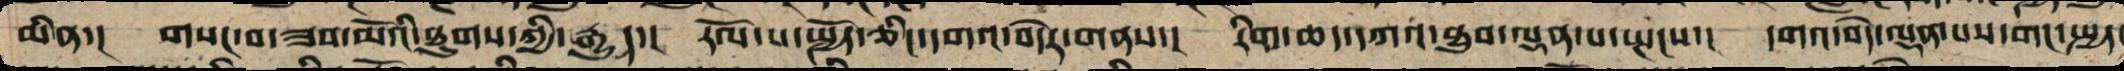མིན་། གསང་བ་ཟབ་མོའི་ཐུགས་ཀྱི་རྒྱུད་། རོལ་པ་སྤྱོད་ཅིང་དགའ་བདེར་གནས་། རིགས་ཆད་དཀའ་ཐུབ་ལྡན་པ་སྤངས་། དགའ་བདེ་ལྡན་པས་གང་སྤྱད་
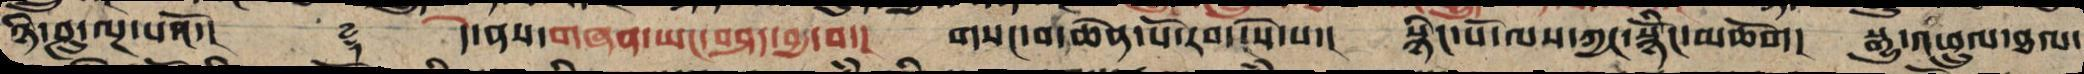ཉི་ཤུ་ལྔ་པའོ་།། ༈ དེ་ནས་གཞན་ཡང་བཤད་བྱ་བ་། གསང་བ་ཆེན་པོ་རབ་ངེས་པ་། སྙིང་པོ་ལས་ཀྱང་སྙིངོ་མཆོག། སྒྱུ་འཕྲུལ་ཐལ་
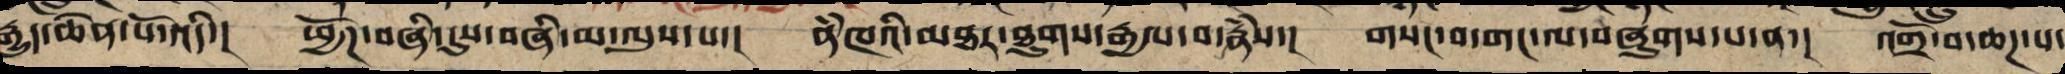རྒྱུད་ཆེན་པོ་འདི་། ཕྱོཌ་བཞི་དུས་བཞི་མ་ལུས་པའི་། ནཾཁའི་མཐར་ཐུག་རྒྱལ་བ་རྣཾས། གསང་བ་གང་ལ་ཞུགས་པ་ན་། འགྲོ་བ་ཆཌ་པ་
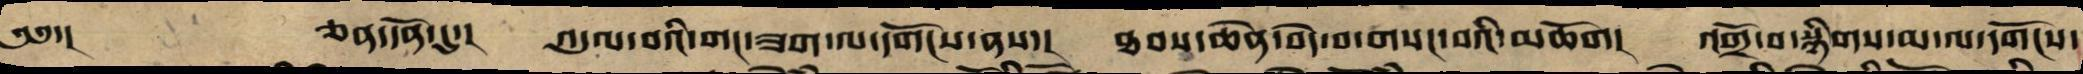༄༅་། ཅན་དོན་དུ་། འདུལ་བའི་གང་ཟག་ལ་དགོངས་ནས་། ཐབས་ཆེན་བདེ་བ་གསང་བའི་མཆོག། འགྲོ་བ་སྙིགས་མ་ལ་དགོངས་
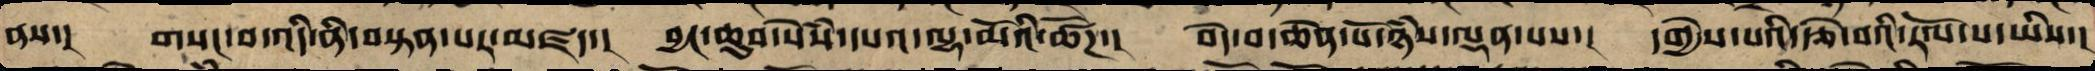ནས་། གསང་བ་འདི་ནི་བསྟན་པར་མཛད་། བྱང་ཆུབ་སེཾས་དཔའ་ལྷ་མོའི་ཚོཌ་། བདེ་བ་ཆེན་པོ་ཉཾས་ལྡན་པས་། དགྱེས་པའི་རྩེ་བའི་རོལ་པ་ཡིས་།
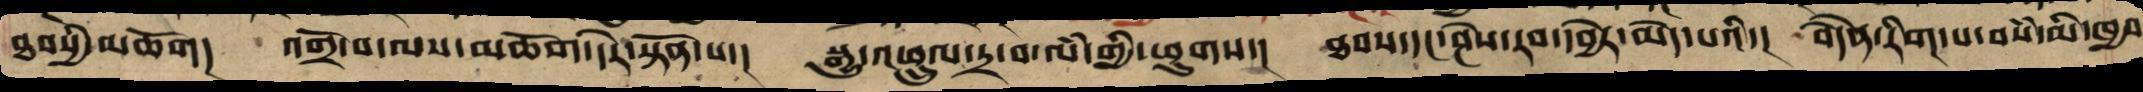ཐབས་ཀྱི་མཆོག། འགྲོ་བ་ལམ་མཆོག་བདེར་སྟོན་པ་། སྒྱུ་འཕྲུལ་དྲ་བ་ལཾ་གྱི་ཕུགས་། ཐབས་དང་ཤེས་རབ་དབྱེར་མེད་པའི་། བདཻན་རིག་པ་བསཾ་མི་ཁྱབ
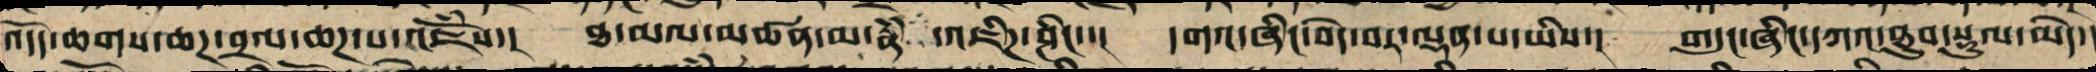འདོད་ཆགས་ཆཌ་བྲལ་ཆགས་པ་འཇོཾས་། ཐ་མལ་མཚན་མ་རྣཾས་འཇིཌ་ཤིང་་། དགའ་ཞིང་བདེ་བར་ལྡན་པ་ཡིས་། གདུང་ཞིང་དཀའ་ཐུབ་སྡུལ་མེད་།
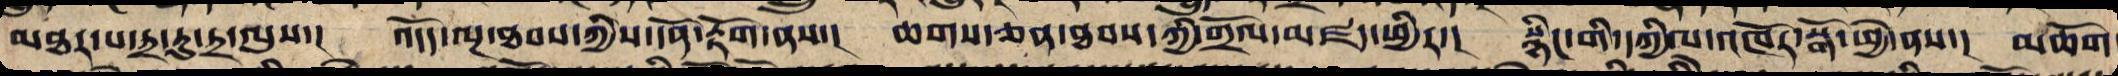མཐར་པ་ཏྲ་རུ་ཏྲ་ལུས། འདོད་ལྔ་ཐབས་ཀྱིས་དོན་རྟོག་ནས་། ཆགས་ཅན་ཐབས་ཀྱིས་གྲོལ་མཛད་ཕྱིར་། སྙིང་གི་དཀྱིལ་འཁོར་སྒོ་ཕྱེས་ནས་། མཆོག
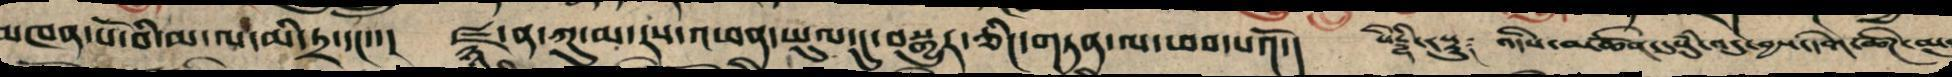མཁན་པོ་བི་མ་ལ་མི་ཏྲ་དང་་། ཛྙཱ་ན་ཀུ་མ་རས་འཕན་ཡུལ་དུ་བསྒྱུར་ཅིང་གཏན་ལ་ཕབ་པའོ་།   སིདྡྷི་རསྟུ༐ འདིས་མཚོན་དུསུཾ་འདུ་བྱས་དགེ་ཚོཌ་མཐུ
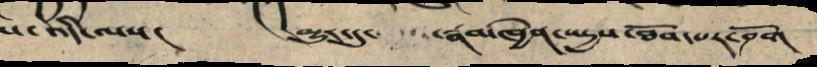ས་འདི་ལས་།  མྱུར་དུ་  རྣམ་མཁྱེན་སདྱས་ཐོབ་པར་ཤོག
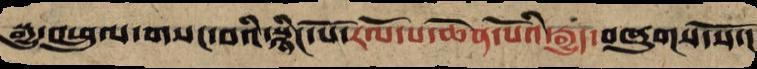སྒྱུ་འཕྲུལ་གསང་བའི་སྙིང་པོ་རོལ་པ་ཆེན་པོའི་རྒྱུད་བཞུགས་སོ་།
